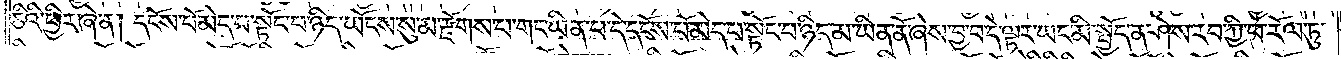ཅིའི་ཕྱིར་ཞེ་ན། དངོས་པོ་མེད་པ་སྟོང་པ་ཉིད་ཡོངས་སུ་མ་རྫོགས་པ་གང་ཡིན་པ་དེ་དངོས་པོ་མེད་པ་སྟོང་པ་ཉིད་མ་ཡིན་ནོ་ཞེས་བྱ་བ་དེ་ལྟར་ཡང་མི་སྤྱོད་ན་ཤེས་རབ་ཀྱི་ཕ་རོལ་ཏུ་
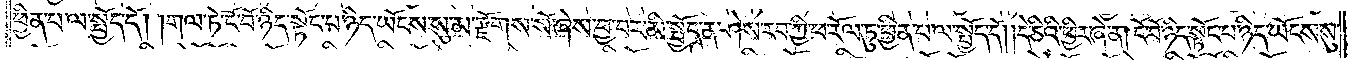ཕྱིན་པ་ལ་སྤྱོད་དོ། །གལ་ཏེ་ངོ་བོ་ཉིད་སྟོང་པ་ཉིད་ཡོངས་སུ་མ་རྫོགས་སོ་ཞེས་བྱ་བར་མི་སྤྱོད་ན་ཤེས་རབ་ཀྱི་ཕ་རོལ་ཏུ་ཕྱིན་པ་ལ་སྤྱོད་དོ། །དེ་ཅིའི་ཕྱིར་ཞེ་ན། ངོ་བོ་ཉིད་སྟོང་པ་ཉིད་ཡོངས་སུ་
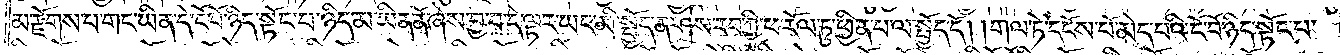མ་རྫོགས་པ་གང་ཡིན་པ་དེ་ངོ་བོ་ཉིད་སྟོང་པ་ཉིད་མ་ཡིན་ནོ་ཞེས་བྱ་བ་དེ་ལྟར་ཡང་མི་སྤྱོད་ན་ཤེས་རབ་ཀྱི་ཕ་རོལ་ཏུ་ཕྱིན་པ་ལ་སྤྱོད་དོ། །གལ་ཏེ་དངོས་པོ་མེད་པའི་ངོ་བོ་ཉིད་སྟོང་པ་
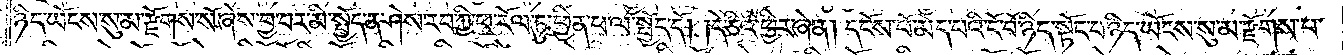ཉིད་ཡོངས་སུ་མ་རྫོགས་སོ་ཞེས་བྱ་བར་མི་སྤྱོད་ན་ཤེས་རབ་ཀྱི་ཕ་རོལ་ཏུ་ཕྱིན་པ་ལ་སྤྱོད་དོ། །དེ་ཅིའི་ཕྱིར་ཞེ་ན། དངོས་པོ་མེད་པའི་ངོ་བོ་ཉིད་སྟོང་པ་ཉིད་ཡོངས་སུ་མ་རྫོགས་པ་
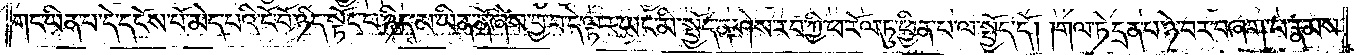གང་ཡིན་པ་དེ་དངོས་པོ་མེད་པའི་ངོ་བོ་ཉིད་སྟོང་པ་ཉིད་མ་ཡིན་ནོ་ཞེས་བྱ་བ་དེ་ལྟར་ཡང་མི་སྤྱོད་ན་ཤེས་རབ་ཀྱི་ཕ་རོལ་ཏུ་ཕྱིན་པ་ལ་སྤྱོད་དོ། །གལ་ཏེ་དྲན་པ་ཉེ་བར་བཞག་པ་རྣམས་
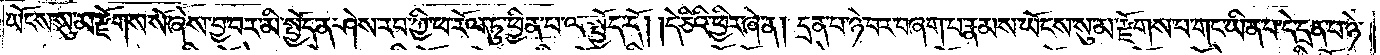ཡོངས་སུ་མ་རྫོགས་སོ་ཞེས་བྱ་བར་མི་སྤྱོད་ན་ཤེས་རབ་ཀྱི་ཕ་རོལ་ཏུ་ཕྱིན་པ་ལ་སྤྱོད་དོ། །དེ་ཅིའི་ཕྱིར་ཞེ་ན། དྲན་པ་ཉེ་བར་བཞག་པ་རྣམས་ཡོངས་སུ་མ་རྫོགས་པ་གང་ཡིན་པ་དེ་དྲན་པ་ཉེ་
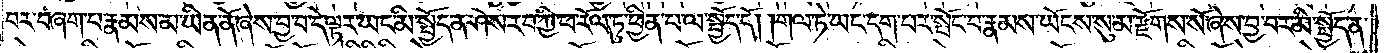བར་བཞག་པ་རྣམས་མ་ཡིན་ནོ་ཞེས་བྱ་བ་དེ་ལྟར་ཡང་མི་སྤྱོད་ན་ཤེས་རབ་ཀྱི་ཕ་རོལ་ཏུ་ཕྱིན་པ་ལ་སྤྱོད་དོ། །གལ་ཏེ་ཡང་དག་པར་སྤོང་བ་རྣམས་ཡོངས་སུ་མ་རྫོགས་སོ་ཞེས་བྱ་བར་མི་སྤྱོད་ན་
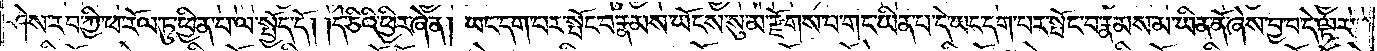ཤེས་རབ་ཀྱི་ཕ་རོལ་ཏུ་ཕྱིན་པ་ལ་སྤྱོད་དོ། དེ་ཅིའི་ཕྱིར་ཞེ་ན། ཡང་དག་པར་སྤོང་བ་རྣམས་ཡོངས་སུ་མ་རྫོགས་པ་གང་ཡིན་པ་དེ་ཡང་དག་པར་སྤོང་བ་རྣམས་མ་ཡིན་ནོ་ཞེས་བྱ་བ་དེ་ལྟར་
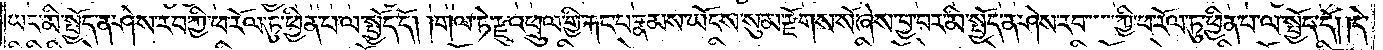ཡང་མི་སྤྱོད་ན་ཤེས་རབ་ཀྱི་ཕ་རོལ་ཏུ་ཕྱིན་པ་ལ་སྤྱོད་དོ། །གལ་ཏེ་རྫུ་འཕྲུལ་གྱི་རྐང་པ་རྣམས་ཡོངས་སུ་མ་རྫོགས་སོ་ཞེས་བྱ་བར་མི་སྤྱོད་ན་ཤེས་རབ་ཀྱི་ཕ་རོལ་ཏུ་ཕྱིན་པ་ལ་སྤྱོད་དོ། །དེ་
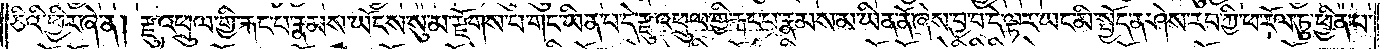ཅིའི་ཕྱིར་ཞེ་ན། རྫུ་འཕྲུལ་གྱི་རྐང་པ་རྣམས་ཡོངས་སུ་མ་རྫོགས་པ་གང་ཡིན་པ་དེ་རྫུ་འཕྲུལ་གྱི་རྐང་པ་རྣམས་མ་ཡིན་ནོ་ཞེས་བྱ་བ་དེ་ལྟར་ཡང་མི་སྤྱོད་ན་ཤེས་རབ་ཀྱི་ཕ་རོལ་ཏུ་ཕྱིན་པ་
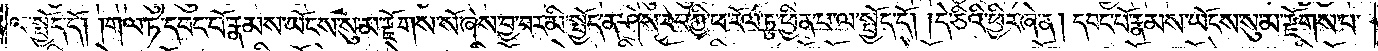ལ་སྤྱོད་དོ། །གལ་ཏེ་དབང་པོ་རྣམས་ཡོངས་སུ་མ་རྫོགས་སོ་ཞེས་བྱ་བར་མི་སྤྱོད་ན་ཤེས་རབ་ཀྱི་ཕ་རོལ་ཏུ་ཕྱིན་པ་ལ་སྤྱོད་དོ། །དེ་ཅིའི་ཕྱིར་ཞེ་ན། དབང་པོ་རྣམས་ཡོངས་སུ་མ་རྫོགས་པ་
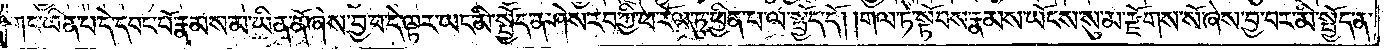གང་ཡིན་པ་དེ་དབང་པོ་རྣམས་མ་ཡིན་ནོ་ཞེས་བྱ་བ་དེ་ལྟར་ཡང་མ་སྤྱོད་ན་ཤེས་རབ་ཀྱི་ཕ་རོལ་ཏུ་ཕྱིན་པ་ལ་སྤྱོད་དོ། །གལ་ཏེ་སྟོབས་རྣམས་ཡོངས་སུ་མ་རྫོགས་སོ་ཞེས་བྱ་བར་མི་སྤྱོད་ན་
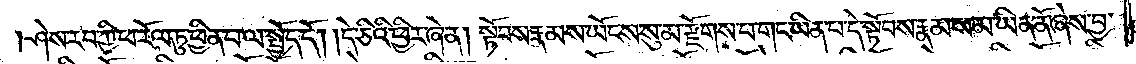ཤེས་རབ་ཀྱི་ཕ་རོལ་ཏུ་ཕྱིན་པ་ལ་སྤྱོད་དོ། །དེ་ཅིའི་ཕྱིར་ཞེ་ན། སྟོབས་རྣམས་ཡོངས་སུ་མ་རྫོགས་པ་གང་ཡིན་པ་དེ་སྟོབས་རྣམས་མ་ཡིན་ནོ་ཞེས་བྱ་
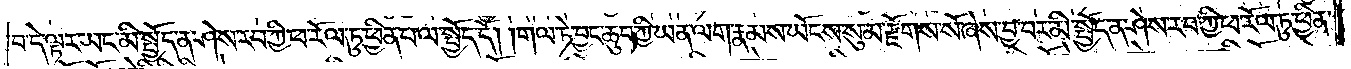བ་དེ་ལྟར་ཡང་མི་སྤྱོད་ན་ཤེས་རབ་ཀྱི་ཕ་རོལ་ཏུ་ཕྱིན་པ་ལ་སྤྱོད་དོ། །གལ་ཏེ་བྱང་ཆུབ་ཀྱི་ཡན་ལག་རྣམས་ཡོངས་སུ་མ་རྫོགས་སོ་ཞེས་བྱ་བར་མི་སྤྱོད་ན་ཤེས་རབ་ཀྱི་ཕ་རོལ་ཏུ་ཕྱིན་
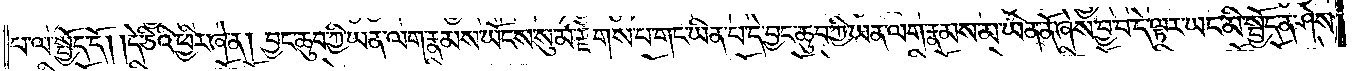པ་ལ་སྤྱོད་དོ། །དེ་ཅིའི་ཕྱིར་ཞེ་ན། བྱང་ཆུབ་ཀྱི་ཡན་ལག་རྣམས་ཡོངས་སུ་མ་རྫོགས་པ་གང་ཡིན་པ་དེ་བྱང་ཆུབ་ཀྱི་ཡན་ལག་རྣམས་མ་ཡིན་ནོ་ཞེས་བྱ་བ་དེ་ལྟར་ཡང་མི་སྤྱོད་ན་ཤེས་
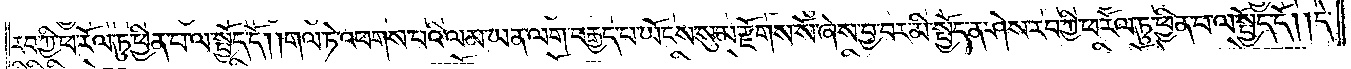རབ་ཀྱི་ཕ་རོལ་ཏུ་ཕྱིན་པ་ལ་སྤྱོད་དོ། །གལ་ཏེ་འཕགས་པའི་ལམ་ཡན་ལག་བརྒྱད་པ་ཡོངས་སུ་མ་རྫོགས་སོ་ཞེས་བྱ་བར་མི་སྤྱོད་ན་ཤེས་རབ་ཀྱི་ཕ་རོལ་ཏུ་ཕྱིན་པ་ལ་སྤྱོད་དོ། །དེ་
